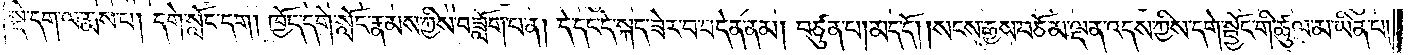སྡེ་དག་ལ་རྨས་པ། དགེ་སློང་དག །ཁྱོད་དགེ་སློང་རྣམས་ཀྱིས་བཟློག་པ་ན། དེ་དང་དེ་སྐད་ཟེར་བ་བདེན་ནམ། བཙུན་པ། མད་དོ། །སངས་རྒྱས་བཅོམ་ལྡན་འདས་ཀྱིས་དགེ་སྦྱོང་གི་ཚུལ་མ་ཡིན་པ།
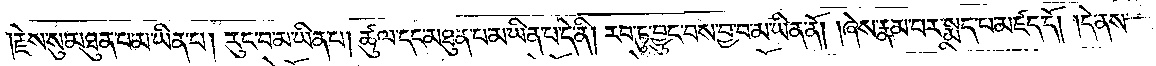རྗེས་སུ་མཐུན་པ་མ་ཡིན་པ། རུང་བ་མ་ཡིན་པ། ཚུལ་དང་མཐུན་པ་མ་ཡིན་པ་དེ་ནི། རབ་ཏུ་བྱུང་བས་བྱ་བ་མ་ཡིན་ནོ། །ཞེས་རྣམ་པར་སྨད་པ་མཛད་དོ། །དེ་ནས་
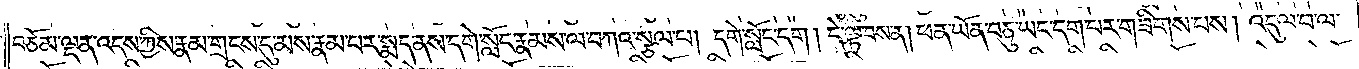བཅོམ་ལྡན་འདས་ཀྱིས་རྣམ་གྲངས་དུ་མས་རྣམ་པར་སྨད་ནས་དགེ་སློང་རྣམས་ལ་བཀའ་སྩལ་པ། དགེ་སློང་དག །དེ་ལྟ་བས་ན། ཕན་ཡོན་བཅུ་ཡང་དག་པར་གཟིགས་པས། འདུལ་བ་ལ་
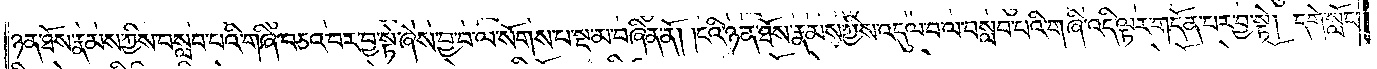ཉན་ཐོས་རྣམས་ཀྱིས་བསླབ་པའི་གཞི་བཅའ་བར་བྱ་སྟེ་ཞེས་བྱ་བ་ལ་སོགས་པ་སྔ་མ་བཞིན་ནོ། །ངའི་ཉན་ཐོས་རྣམས་ཀྱིས་འདུལ་བ་ལ་བསླབ་པའི་གཞི་འདི་ལྟར་གདོན་པར་བྱ་སྟེ། དགེ་སློང་
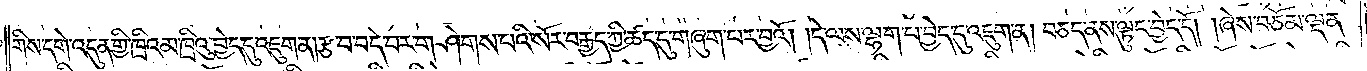གིས་དགེ་འདུན་གྱི་ཁྲིའམ་ཁྲིའུ་བྱེད་དུ་འཇུག་ན། རྩ་བ་བདེ་བར་གཤེགས་པའི་སོར་བརྒྱད་ཀྱི་ཚད་དུ་གཞུག་པར་བྱའོ། །དེ་ལས་ལྷག་པ་བྱེད་དུ་འཇུག་ན། བཅད་ནས་ལྟུང་བྱེད་དོ། །ཞེས་བཅོམ་ལྡན་
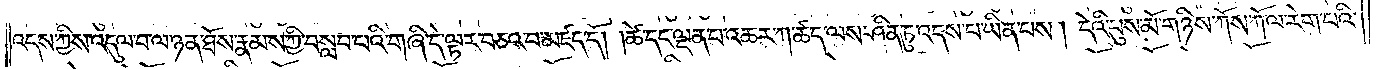འདས་ཀྱིས་འདུལ་བ་ལ་ཉན་ཐོས་རྣམས་ཀྱི་བསླབ་པའི་གཞི་དེ་ལྟར་བཅའ་བ་མཛད་དོ། །ཚེ་དང་ལྡན་པ་འཆར་ཀ་ཚད་ལས་ཤིན་ཏུ་འདས་པ་ཡིན་པས། དེའི་པུས་མོ་གཉིས་ཀོས་ཀོ་ལ་རེག་པའི་
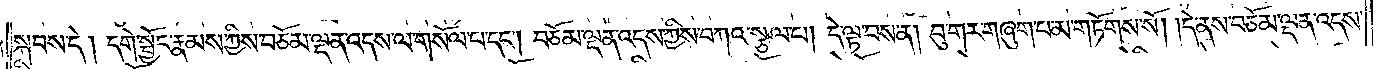སྐབས་དེ། དགེ་སྦྱོང་རྣམས་ཀྱིས་བཅོམ་ལྡན་འདས་ལ་གསོལ་པ་དང༌། བཅོམ་ལྡན་འདས་ཀྱིས་བཀའ་སྩལ་པ། དེ་ལྟ་བས་ན། བུ་གར་གཞུག་པ་མ་གཏོགས་སོ། །དེ་ནས་བཅོམ་ལྡན་འདས་
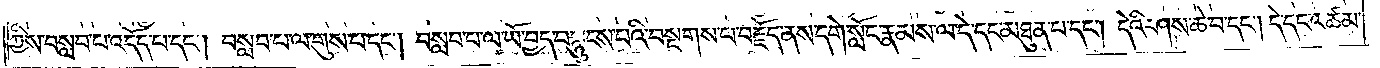ཀྱིས་བསླབ་པ་འདོད་པ་དང༌། བསླབ་པ་ལ་གུས་པ་དང༌། བསླབ་པ་ལ་ཡོ་བྱད་བསྙུངས་པའི་བསྔགས་པ་བརྗོད་ནས་དགེ་སློང་རྣམས་ལ་དེ་དང་མཐུན་པ་དང༌། དེའི་ཤས་ཆེ་བ་དང༌། དེ་དང་འཚམ་
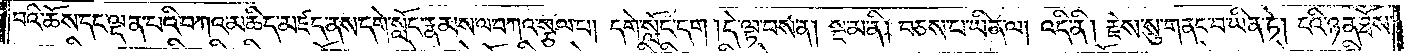བུའི་ཆོས་དང་ལྡན་པའི་བཀའ་མཆིད་མཛད་ནས་དགེ་སློང་རྣམས་ལ་བཀའ་སྩལ་པ། དགེ་སློང་དག །དེ་ལྟ་བས་ན། སྔ་མ་ནི། བཅས་པ་ཡིན་ལ། འདི་ནི། རྗེས་སུ་གནང་བ་ཡིན་ཏེ། ངའི་ཉན་ཐོས་
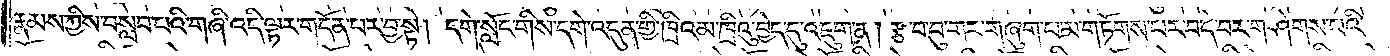རྣམས་ཀྱིས་བསླབ་པའི་གཞི་འདི་ལྟར་གདོན་པར་བྱ་སྟེ། དགེ་སློང་གིས་དགེ་འདུན་གྱི་ཁྲིའམ་ཁྲིའུ་བྱེད་དུ་འཇུག་ན། རྩ་བ་བུ་གར་གཞུག་པ་མ་གཏོགས་པར་བདེ་བར་གཤེགས་པའི་
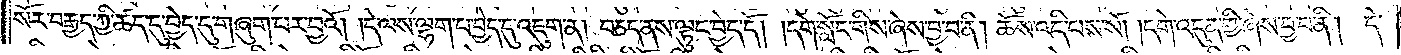སོར་བརྒྱད་ཀྱི་ཚད་དུ་བྱེད་དུ་གཞུག་པར་བྱའོ། །དེ་ལས་ལྷག་པ་བྱེད་དུ་འཇུག་ན། བཅད་ནས་ལྟུང་བྱེད་དོ། །དགེ་སློང་གིས་ཞེས་བྱ་བ་ནི། ཆོས་འདི་པས་སོ། །དགེ་འདུན་གྱི་ཞེས་བྱ་བ་ནི། དེ་
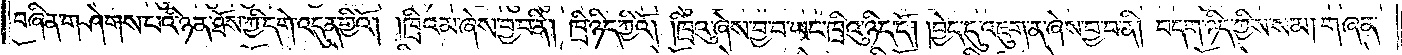བཞིན་གཤེགས་པའི་ཉན་ཐོས་ཀྱི་དགེ་འདུན་གྱིའོ། །ཁྲིའམ་ཞེས་བྱ་བ་ནི། ཁྲི་ཉིད་ཀྱིའོ། །ཁྲིའུ་ཞེས་བྱ་བ་ཡང་ཁྲིའུ་ཉིད་དོ། །བྱེད་དུ་འཇུག་ན་ཞེས་བྱ་བ་ནི། བདག་ཉིད་ཀྱིས་སམ། གཞན་
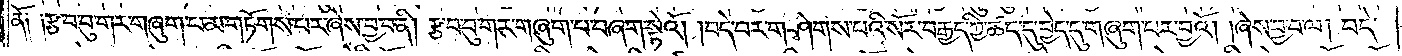ནོ༑ ༑རྩ་བ་བུ་གར་གཞུག་པ་མ་གཏོགས་པར་ཞེས་བྱ་བ་ནི། རྩ་བ་བུ་གར་གཞུག་པ་བཞག་སྟེའོ། །བདེ་བར་གཤེགས་པའི་སོར་བརྒྱད་ཀྱི་ཚད་དུ་བྱེད་དུ་གཞུག་པར་བྱའོ། །ཞེས་བྱ་བ་ལ། བདེ་
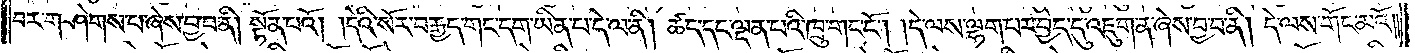བར་གཤེགས་པ་ཞེས་བྱ་བ་ནི། སྟོན་པའོ། །དེའི་སོར་བརྒྱད་གང་དག་ཡིན་པ་དེ་ལ་ནི། ཚད་དང་ལྡན་པའི་ཁྲུ་གང་ངོ༌། །དེ་ལས་ལྷག་པར་བྱེད་དུ་འཇུག་ན་ཞེས་བྱ་བ་ནི། དེ་ལས་གོང་མའོ༎
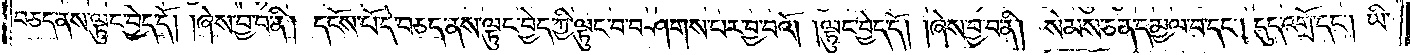བཅད་ནས་ལྟུང་བྱེད་དོ། །ཞེས་བྱ་བ་ནི། དངོས་པོ་དེ་བཅད་ནས་ལྟུང་བྱེད་ཀྱི་ལྟུང་བ་བཤགས་པར་བྱ་བའོ། །ལྟུང་བྱེད་དོ། །ཞེས་བྱ་བ་ནི། སེམས་ཅན་དམྱལ་བ་དང༌། དུད་འགྲོ་དང༌། ཡི་
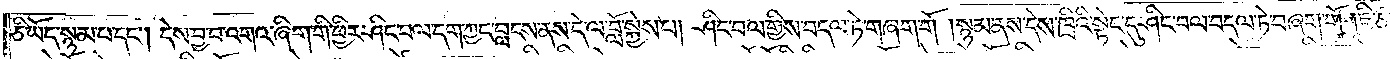ཅི་ཡོད་སྙམ་པ་དང༌། དེས་བྱ་བ་འགའ་ཞིག་གི་ཕྱིར་ཤིང་བལ་དག་ཀྱང་བླངས་ནས་དེ་ལ་བློ་སྐྱེས་པ། ཤིང་བལ་གྱིས་བདལ་ཏེ་གཞག་གོ །སྙམ་ནས་དེས་ཁྲིའི་སྟེང་དུ་ཤིང་བལ་བདལ་ཏེ་བཞག་གོ །ཇི་ཙམ་
